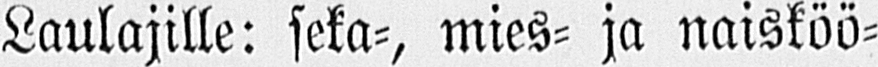Laulajille: seka-, mies- ja naisköö-
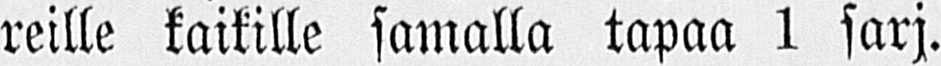reille kaikille samalla tapaa 1 sarj.
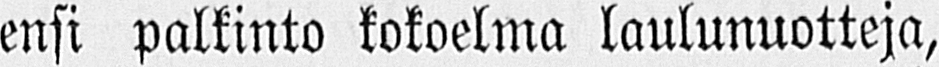ensi palkinto kokoelma laulunuotteja,
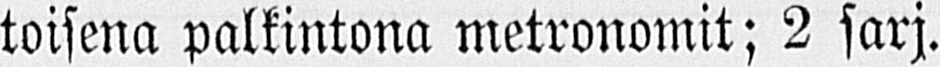toisena palkintona metronomit; 2 sarj.
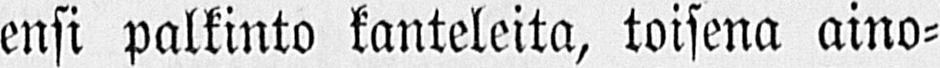ensi palkinto kanteleita, toisena aino-
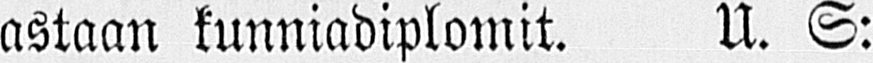astaan kunniadiplomit. U. S:
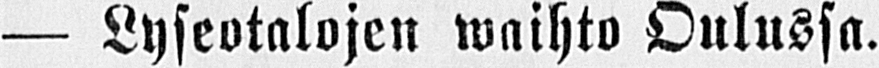— Lyseotalojen waihto Oulussa.
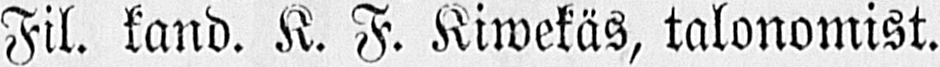Fil. kand. K. F. Kiwekäs, talonomist.
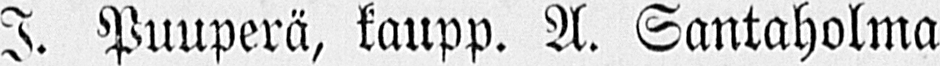I. Puuperä, kaupp. A. Santaholma
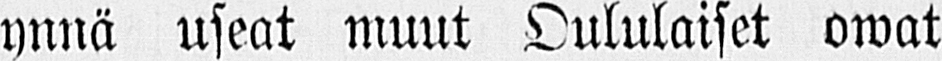ynnä useat muut Oululaiset owat
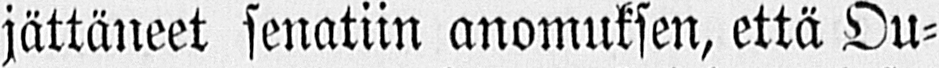jättäneet senatiin anomuksen, että Ou-
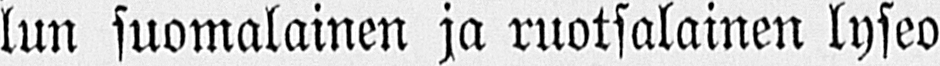lun suomalainen ja ruotsalainen lyseo
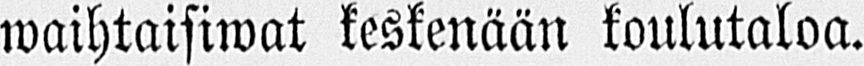waihtaisiwat keskenään koulutaloa.
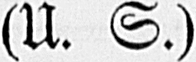(U. S.)
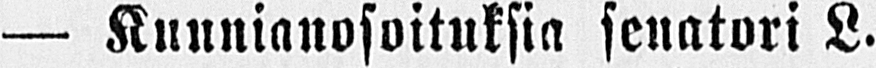— Kunnianosoituksia senatori L.
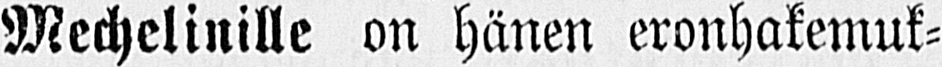Mechelinille on hänen eronhakemuk-
